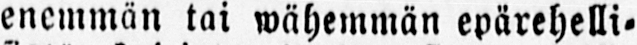enemmän tai wähemmän epärehelli-
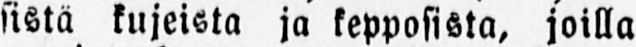sistä kujeista ja kepposista, joilla
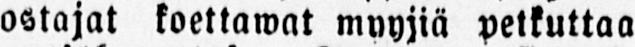ostajat koettawat myyjiä petkuttaa
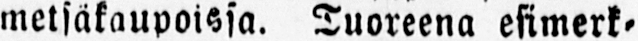metsäkaupoissa. Tuoreena esimerk-
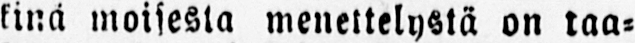kinä moisesta menettelystä on taa-
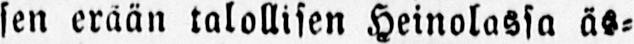sen erään talollisen Heinolassa äs-
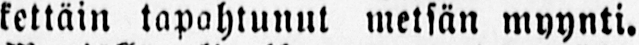kettäin tapahtunut metsän myynti.
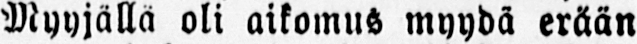Myyjällä oli aikomus myydä erään
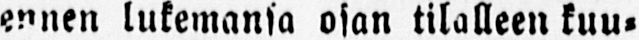ennen lukemansa osan tilalleen kuu-
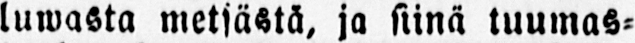luwasta metsästä, ja siinä tuumas-
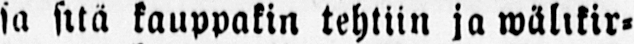sa sitä kauppakin tehtiin ja wälikir-
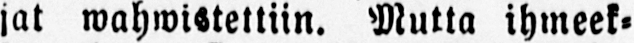jat wahwistetliin. Mutta ihmeek-
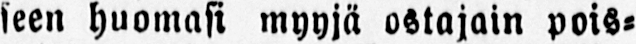seen huomasi myyjä ostajain pois-
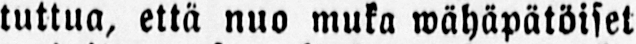tuttua, että nuo muka wähäpätöiset
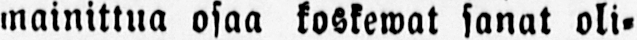mainittua osaa koskewat sanat oli-
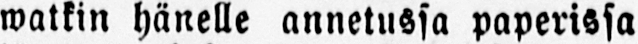watkin hänelle annetussa paperissa
